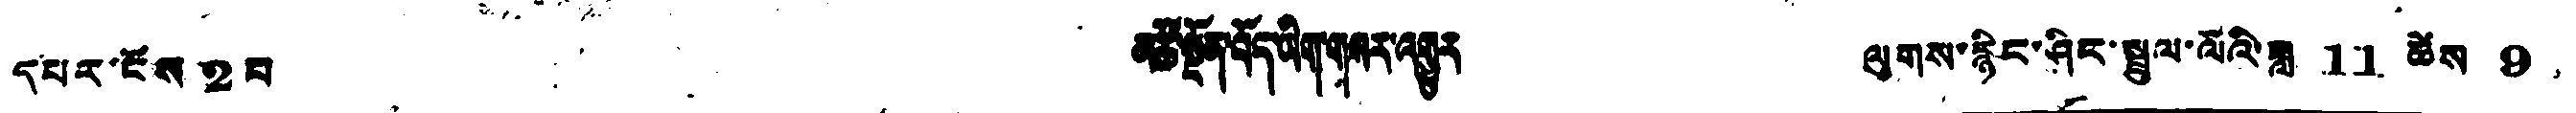དཔར་ངོས 2 པ མཚོ་སྔོན་བོད་ཡིག་གསར་འགྱུར ལུགས་རྙིང་ཤིང་སྤྲུལ་ལོའི་ཟླ 11 ཚེས 9
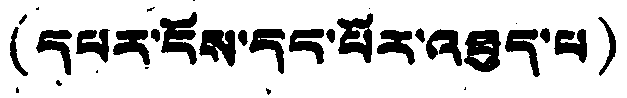(དཔར་ངོས་དང་པོར་འཐུད་པ)
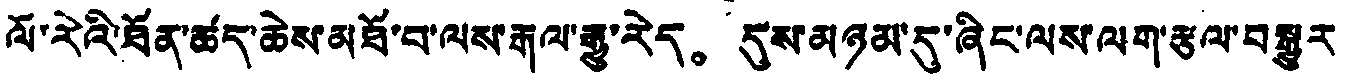ལོ་རེའི་ཐོན་ཚད་ཆེས་མཐོ་བ་ལས་རྒལ་རྒྱུ་རེད。 དུས་མཉམ་དུ་ཞིང་ལས་ལག་རྩལ་བསྒྱུར
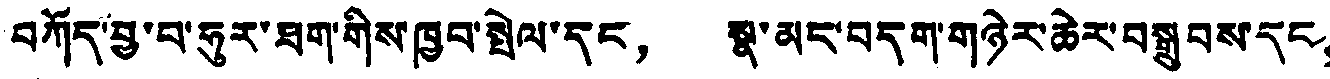བཀོད་བྱ་བ་ཧུར་ཐག་གིས་ཁྱབ་སྤེལ་དང， སྣ་མང་བདག་གཉེར་ཆེར་བསྒྲུབས་དང，
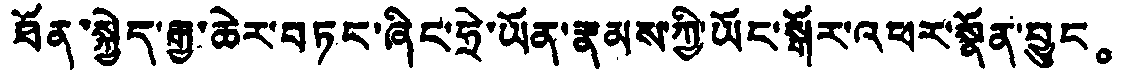ཐོན་སྐྱེད་རྒྱ་ཆེར་བཏང་ཞིང་ཧྲེ་ཡོན་རྣམས་ཀྱི་ཡོང་སྒོར་འཕར་སྣོན་བྱུང。
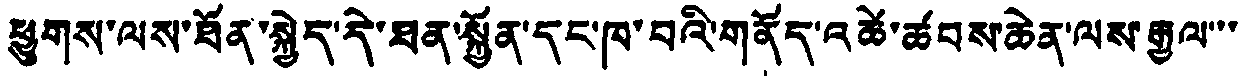ཕྱུགས་ལས་ཐོན་སྐྱེད་དེ་ཐན་སྐྱོན་དང་ཁ་བའི་གནོད་འཚེ་ཚབས་ཆེན་ལས་རྒྱལ་་་
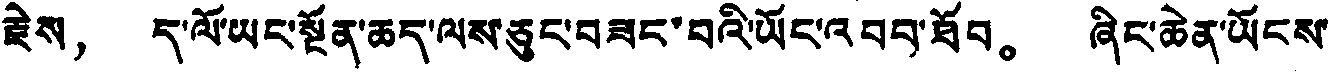རྗེས， ད་ལོ་ཡང་སྔོན་ཆད་ལས་ཅུང་བཟང་བའི་ཡོང་འབབ་ཐོབ。 ཞིང་ཆེན་ཡོངས་
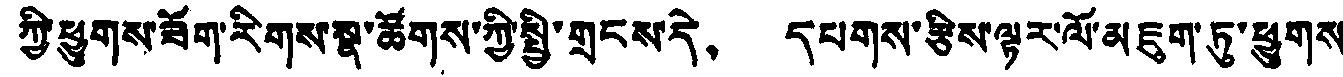ཀྱི་ཕྱུགས་ཟོག་རིགས་སྣ་ཚོགས་ཀྱི་སྤྱི་གྲངས་དེ， དཔགས་རྩིས་ལྟར་ལོ་མཇུག་ཏུ་ཕྱུགས་
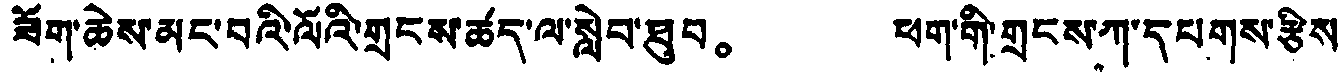ཟོག་ཆེས་མང་བའི་ལོའི་གྲངས་ཚད་ལ་སླེབ་ཐུབ。 ཕག་གི་གྲངས་ཀ་དཔགས་རྩིས་
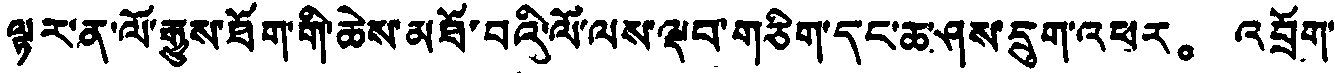ལྟར་ན་ལོ་རྒྱུས་ཐོག་གི་ཆེས་མཐོ་བའི་ལོ་ལས་ལྡབ་གཅིག་དང་ཆ་ཤས་དྲུག་འཕར。 འབྲོག་
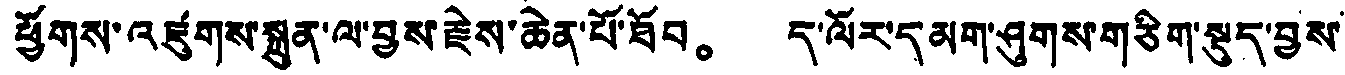ཕྱོགས་འཛུགས་སྐྲུན་ལ་བྱས་རྗེས་ཆེན་པོ་ཐོབ。 ད་ལོར་དམག་ཤུགས་གཅིག་སྡུད་བྱས་
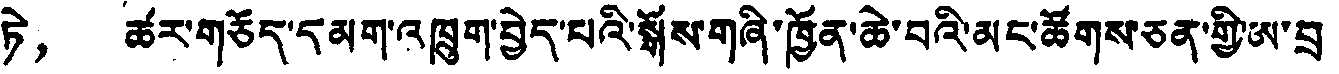ཏེ， ཚར་གཅོད་དམག་འཁྲུག་བྱེད་པའི་སྒོས་གཞི་ཁྱོན་ཆེ་བའི་མང་ཚོགས་ཅན་གྱི་ཨ་བྲ་
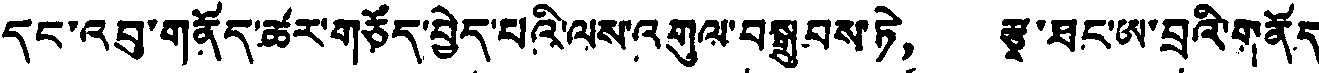དང་འབུ་གནོད་ཚར་གཅོད་བྱེད་པའི་ལས་འགུལ་བསྒྲུབས་ཏེ， རྩྭ་ཐང་ཨ་བྲའི་གནོད་
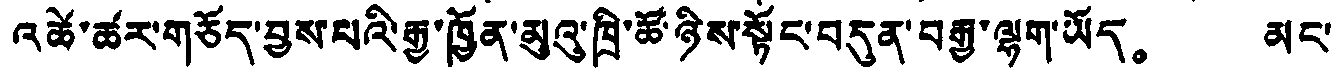འཚེ་ཚར་གཅོད་བྱས་པའི་རྒྱ་ཁྱོན་མུའུ་ཁྲི་ཚོ་ཉིས་སྟོང་བདུན་བརྒྱ་ལྷག་ཡོད。 མང་
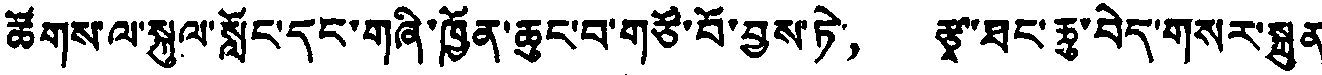ཚོགས་ལ་སྐུལ་སློང་དང་གཞི་ཁྱོན་ཆུང་བ་གཙོ་བོ་བྱས་ཏེ， རྩྭ་ཐང་ཆུ་བེད་གསར་སྐྲུན་
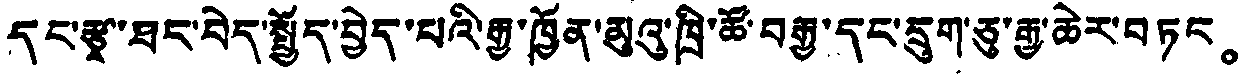དང་རྩྭ་ཐང་བེད་སྤྱོད་བྱེད་པའི་རྒྱ་ཁྱོན་མུའུ་ཁྲི་ཚོ་བརྒྱ་དང་དྲུག་ཅུ་རྒྱ་ཆེར་བཏང。
